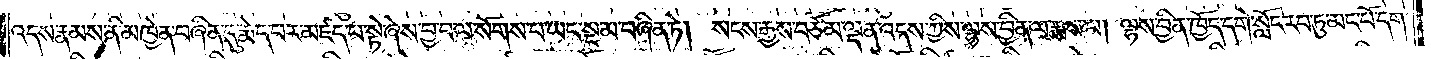འདས་རྣམས་ནི་མཁྱེན་བཞིན་དུ་རྨེད་པར་མཛད་པ་སྟེ་ཞེས་བྱ་བ་ལ་སོགས་པ་ཡང་སྔ་མ་བཞིན་ཏེ། སངས་རྒྱས་བཅོམ་ལྡན་འདས་ཀྱིས་ལྷས་བྱིན་ལ་རྨས་པ། ལྷས་བྱིན་ཁྱོད་དགེ་སློང་རབ་ཏུ་མང་པོ་དག་
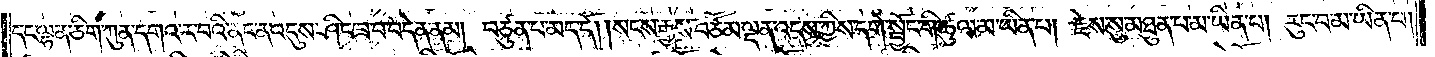དང་ལྷན་ཅིག་ཀུན་དགའ་ར་བའི་ནང་ན་འདུས་ཤིང་ཟ་བ་བདེན་ནམ། བཙུན་པ་མད་དོ། །སངས་རྒྱས་བཅོམ་ལྡན་འདས་ཀྱིས་དགེ་སྦྱོང་གི་ཚུལ་མ་ཡིན་པ། རྗེས་སུ་མཐུན་པ་མ་ཡིན་པ། རུང་བ་མ་ཡིན་པ།
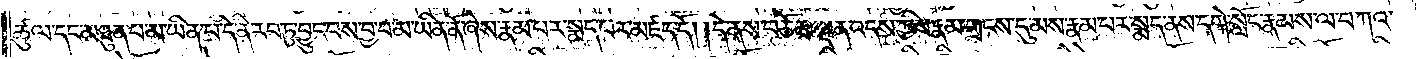ཚུལ་དང་མཐུན་པ་མ་ཡིན་པ་དེ་ནི་རབ་ཏུ་བྱུང་བས་བྱ་བ་མ་ཡིན་ནོ་ཞེས་རྣམ་པར་སྨད་པར་མཛད་དོ། །དེ་ནས་བཅོམ་ལྡན་འདས་ཀྱིས་རྣམ་གྲངས་དུ་མས་རྣམ་པར་སྨད་ནས་དགེ་སློང་རྣམས་ལ་བཀའ་
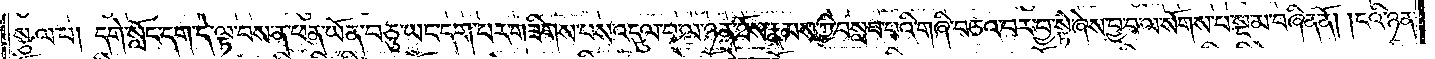སྩལ་པ། དགེ་སློང་དག་དེ་ལྟ་བས་ན་ཕན་ཡོན་བཅུ་ཡང་དག་པར་གཟིགས་པས་འདུལ་བ་ལ་ཉན་ཐོས་རྣམས་ཀྱི་བསླབ་པའི་གཞི་བཅའ་བར་བྱ་སྟེ་ཞེས་བྱ་བ་ལ་སོགས་པ་སྔ་མ་བཞིན་ནོ། །ངའི་ཉན་
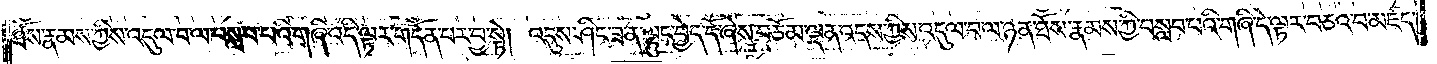ཐོས་རྣམས་ཀྱིས་འདུལ་བ་ལ་བསླབ་པའི་གཞི་འདི་ལྟར་གདོན་པར་བྱ་སྟེ། འདུས་ཤིང་ཟ་ན་ལྟུང་བྱེད་དོ་ཞེས་བཅོམ་ལྡན་འདས་ཀྱིས་འདུལ་བ་ལ་ཉན་ཐོས་རྣམས་ཀྱི་བསླབ་པའི་གཞི་དེ་ལྟར་བཅའ་བ་མཛད་
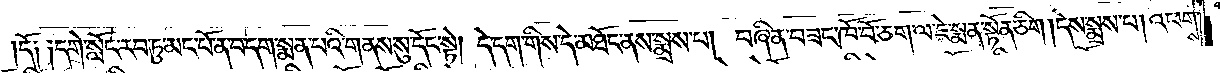དོ༑ ༑དགེ་སློང་རབ་ཏུ་མང་པོ་ན་བ་དག་སྨན་པའི་གནས་སུ་དོང་སྟེ། དེ་དག་གིས་དེ་མཐོང་ནས་སྨྲས་པ། བཞིན་བཟང་ཁོ་བོ་ཅག་ལ་ཇེ་སྨན་སྟོན་ཅིག །དེས་སྨྲས་པ། འཕགས་
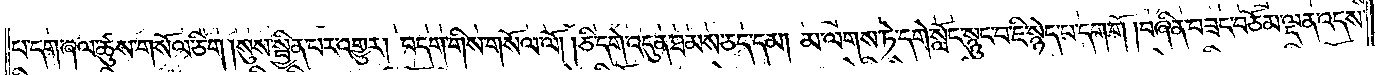པ་དག་ཞལ་ཚུས་གསོལ་ཅིག །སུས་སྦྱིན་པར་འགྱུར། བདག་གིས་གསོལ་ལོ། །ཅི་དགེ་འདུན་ཐམས་ཅད་དམ། མ་ལགས་ཏེ་དགེ་སློང་སྙུང་བ་ཇི་སྙེད་པ་དག་གོ །བཞིན་བཟང་བཅོམ་ལྡན་འདས་
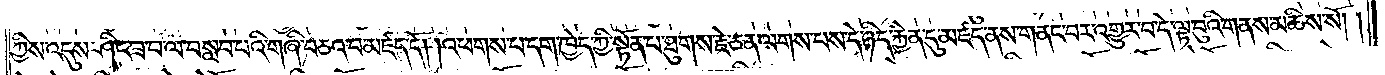ཀྱིས་འདུས་ཤིང་ཟ་བ་ལ་བསླབ་པའི་གཞི་བཅའ་བ་མཛད་དོ། །འཕགས་པ་དག་ཁྱེད་ཀྱི་སྟོན་པ་ཐུགས་རྗེ་ཅན་ལགས་པས་དེ་ཉིད་རྐྱེན་དུ་མཛད་ནས་གནང་བར་འགྱུར་བ་དེ་ལྟ་བུའི་གནས་མཆིས་སོ། །
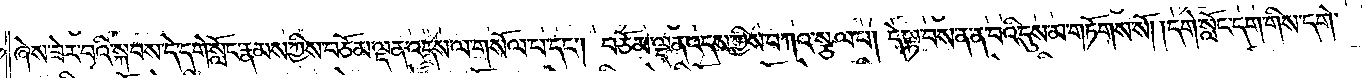ཞེས་ཟེར་བའི་སྐབས་དེ་དགེ་སློང་རྣམས་ཀྱིས་བཅོམ་ལྡན་འདས་ལ་གསོལ་པ་དང༌། བཅོམ་ལྡན་འདས་ཀྱིས་བཀའ་སྩལ་པ། དེ་ལྟ་བས་ན་ན་བའི་དུས་མ་གཏོགས་སོ། །དགེ་སློང་དག་གིས་དགེ་
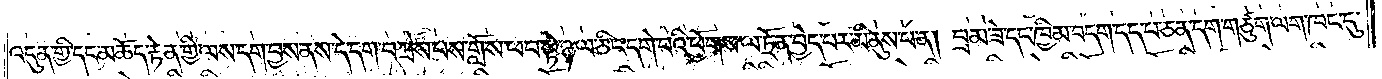འདུན་གྱི་དང་མཆོད་རྟེན་གྱི་ལས་དག་བྱས་ནས་དེ་དག་བཀྲེས་པས་གློས་ཕབ་སྟེ་ཉལ་ཅིང་དགེ་བའི་ཕྱོགས་ལ་ཏྲོན་བྱེད་པར་མི་ནུས་པ་ན། བྲམ་ཟེ་དང་ཁྱིམ་བདག་དད་པ་ཅན་དག་གཙུག་ལག་ཁང་དུ་
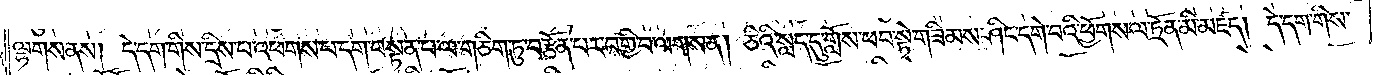ལྷགས་ནས། དེ་དག་གིས་དྲིས་པ་འཕགས་པ་དག་བསྟན་པ་ལ་གཅིག་ཏུ་བརྩོན་པར་བགྱི་བ་ལགས་ན། ཅིའི་སླད་དུ་གློས་ཕབ་སྟེ་གཟིམས་ཤིང་དགེ་བའི་ཕྱོགས་ལ་ཏྲོན་མི་མཛད། དེ་དག་གིས་
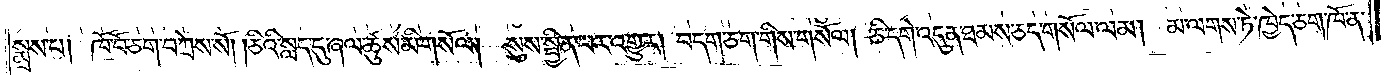སྨྲས་པ། ཁོ་བོ་ཅག་བཀྲེས་སོ། །ཅིའི་སླད་དུ་ཞལ་ཚུས་མི་གསོལ། སུས་སྦྱིན་པར་འགྱུར་།བདག་ཅག་གིས་གསོལ། ཅི་དགེ་འདུན་ཐམས་ཅད་གསོལ་ལམ། མ་ལགས་ཏེ་ཁྱེད་ཅག་ཁོ་ན་
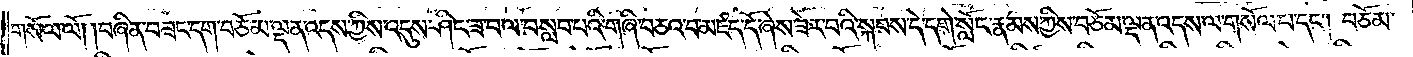གསོལ་ལོ། །བཞིན་བཟང་དག་བཅོམ་ལྡན་འདས་ཀྱིས་འདུས་ཤིང་ཟ་བ་ལ་བསླབ་པའི་གཞི་བཅའ་བ་མཛད་དོ་ཞེས་ཟེར་བའི་སྐབས་དེ་དགེ་སློང་རྣམས་ཀྱིས་བཅོམ་ལྡན་འདས་ལ་གསོལ་བ་དང༌། བཅོམ་
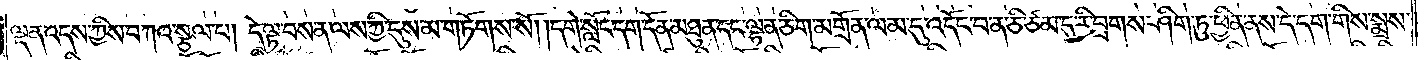ལྡན་འདས་ཀྱིས་བཀའ་སྩལ་པ། དེ་ལྟ་བས་ན་ལས་ཀྱི་དུས་མ་གཏོགས་སོ། །དགེ་སློང་དག་དོན་མཐུན་དང་ལྷན་ཅིག་མགྲོན་ལམ་དུ་འདོང་བ་ན་ཅི་ཙམ་དུ་རི་བྲགས་ཤིག་ཏུ་ཕྱིན་ནས་དེ་དག་གིས་སྨྲས་
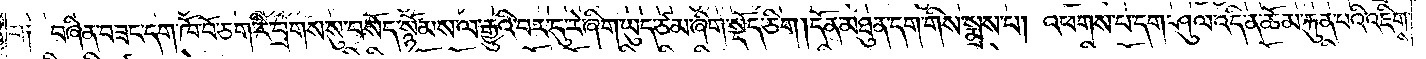པ༑ བཞིན་བཟང་དག་ཁོ་བོ་ཅག་རི་བྲགས་སུ་བསོད་སྙོམས་ལ་རྒྱུའི་བར་དུ་རེ་ཞིག་ཡུད་ཙམ་ཞིག་སྡོད་ཅིག །དོན་མཐུན་དག་གིས་སྨྲས་པ། འཕགས་པ་དག་ཤུལ་འདི་ན་ཆོམ་རྐུན་པའི་འཇིགས་
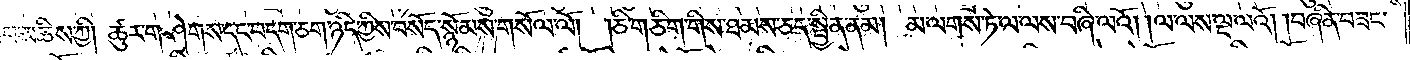པ་མཆིས་ཀྱི། ཚུར་གཤེགས་དང་བདག་ཅག་ཉིད་ཀྱིས་བསོད་སྙོམས་གསོལ་ལོ། །ཅི་གཅིག་གིས་ཐམས་ཅད་སྦྱིན་ནམ། མ་ལགས་ཏེ་ལ་ལས་བཞི་ལའོ། །ལ་ལས་ལྔ་ལའོ། །བཞིན་བཟང་
